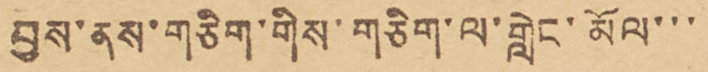བྱས་ནས་གཅིག་གིས་གཅིག་ལ་གླེང་མོལ་་་
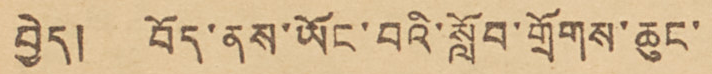བྱེད། བོད་ནས་ཡོང་བའི་སློབ་གྲོགས་ཆུང་
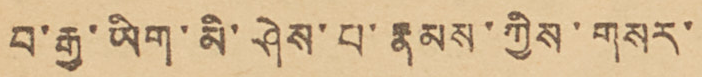བ་རྒྱ་ཡིག་མི་ཤེས་པ་རྣམས་ཀྱིས་གསར་
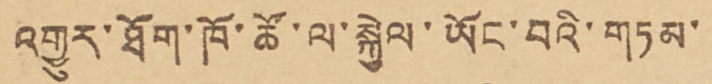འགྱུར་ཐོག་ཁོ་ཚོ་ལ་སྐྱེལ་ཡོང་བའི་གཏམ་
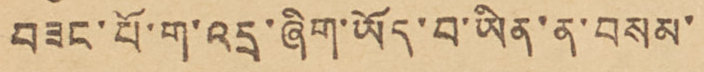བཟང་པོ་ག་འདྲ་ཞག་ཡོད་བ་ཡིན་ན་བསམ་
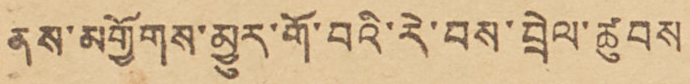ནས་མགྱོགས་མྱུར་གོ་བའི་རེ་བས་བྲེལ་ཚུབས
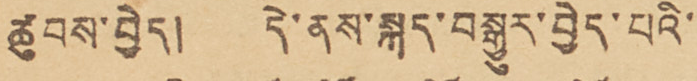ཚུབས་བྱེད། དེ་ནས་སྐད་བསྒྱུར་བྱེད་པའི་
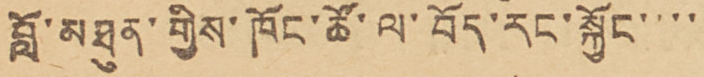བློ་མཐུན་གྱིས་ཁོང་ཚོ་ལ་བོད་རང་སྐྱོང་་་་
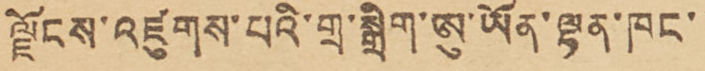ལྗོངས་འཛུགས་པའི་གྲ་སྒྲིག་ཨུ་ཡོན་ལྷན་ཁང་
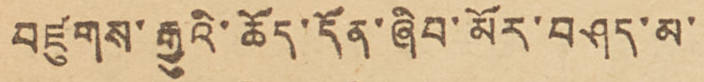བཛུགས་རྒྱུའི་ཆོད་དོན་ཞིབ་མོར་བཤད་མ་
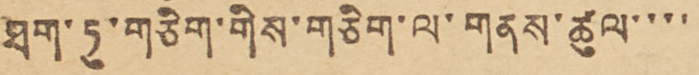ཐག་ཏུ་གཅིག་གིས་གཅིག་ལ་གནས་ཚུལ་་་་
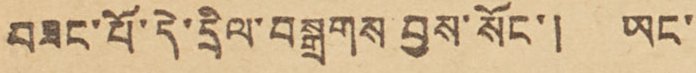བཟང་པོ་དེ་དྲིལ་བསྒྲགས བྱས་སོང་། ཡང་
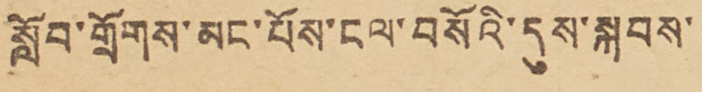སློབ་གྲོགས་མང་པོས་ངལ་བསོའི་དུས་སྐབས་
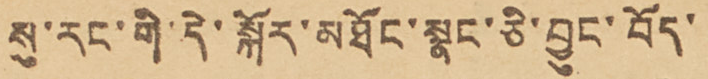སུ་རང་གི་དེ་སྐོར་མཐོང་སྣང་ཅི་བྱུང་བོད་
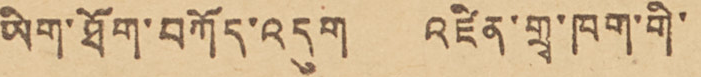ཡིག་ཐོག་བཀོད་འདུག འཛིན་གྲྭ་ཁག་གི་
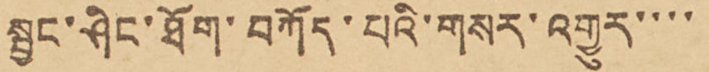སྦྱང་ཤིང་ཐོག་བཀོད་པའི་གསར་འགྱུར་་་་
